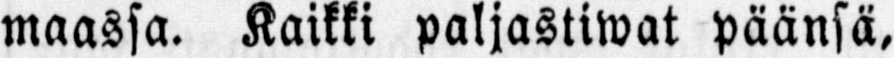maassa. Kaikki paljastiwat päänsä,
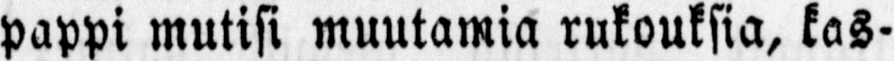pappi mutisi muutamia rukouksia, kas-
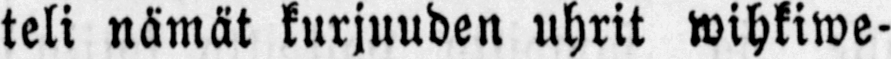teli nämät kurjuuden uhrit wihkiwe-
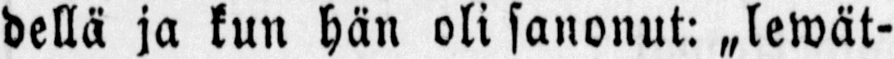dellä ja kun hän oli sanonut: „lewät-
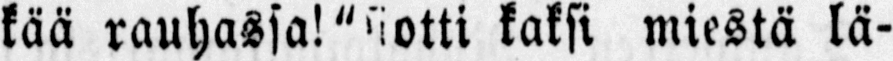kää rauhassa!" otti kaksi miestä lä-
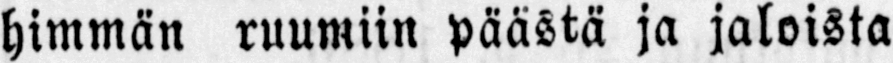himmän ruumiin päästä ja jaloista
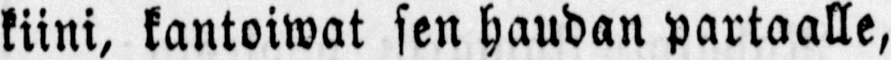kiini, kantoitwat sen haudan partaalle,
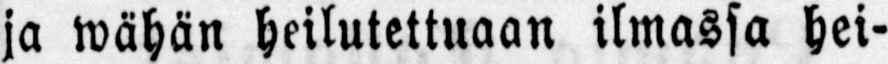ja wähän heilutettuaan ilmassa hei-
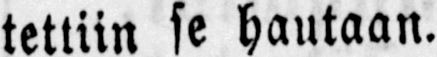tettiin se hautaan.
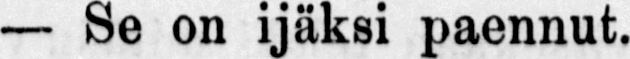— Se on ijäksi paennut.
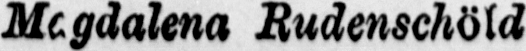Magdalena Rudenschöld
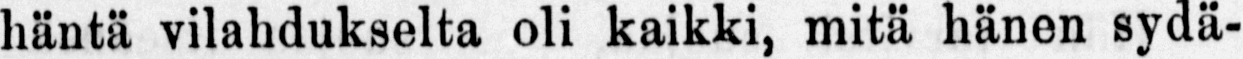häntä vilahdukselta oli kaikki, mitä hänen sydä-
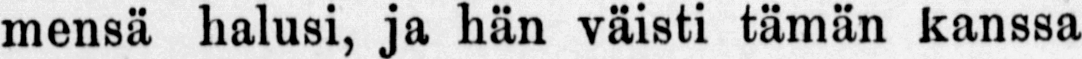mensä halusi, ja hän väisti tämän Kanssa jutte-
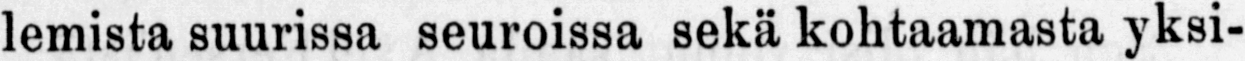lemista suurissa seuroissa sekä kohtaamasta yksi-
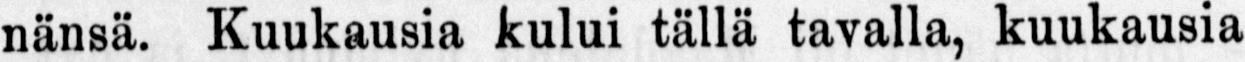nänsä. Kuukausia kului tällä tavalla, kuukausia
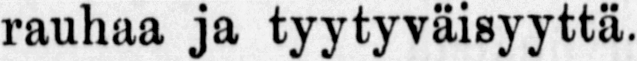täynänsä rauhaa ja tyytyväisyyttä.
